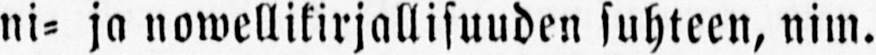ni- ja nowellikirjallisuuden suhteen, nim.
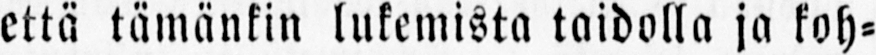että tämänkin lukemista taidolla ja koh-
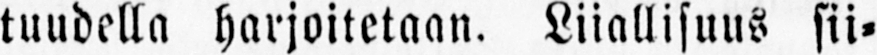tuudella harjoitetaan. Liiallisuus sii-
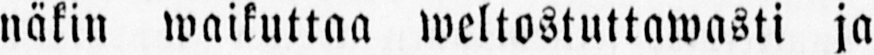näkin waikuttaa weltostuttawasti ja
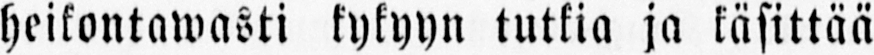heikontawasti kykyyn tutkia ja käsittää
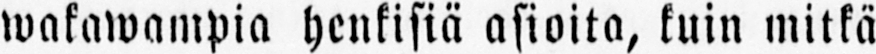wasawampia henkisiä asioita, kuin mitkä
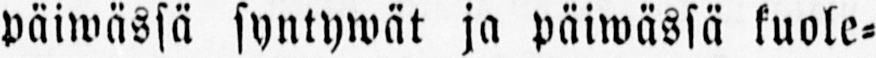päiwässä syntywät ja päiwässä kuole-
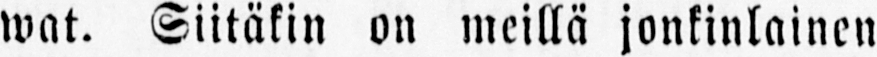wat. Siitäkin on meillä jonkinlainen
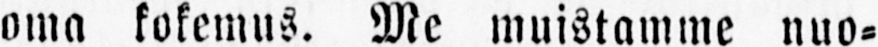oma kokemus. Me muistamme nuo-
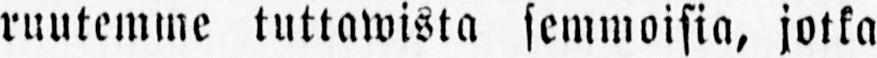ruutemme tuttawista semmoisia, jotka
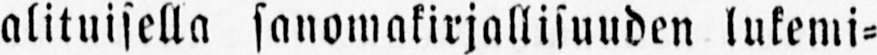alituisella sanomakirjallisuuden lukemi-
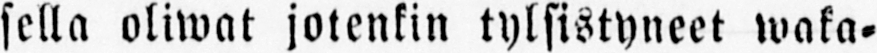sella oliwat jotenkin tylsistyneet waka-
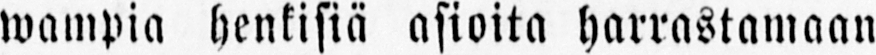wampia henkisiä asioita harrastamaan
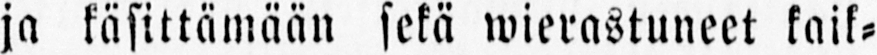ja käsittämään sekä wierastuneet kaik-
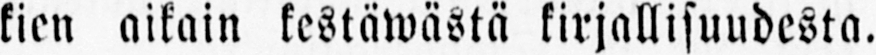kien aikain kestäwästä kirjallisuudesta.
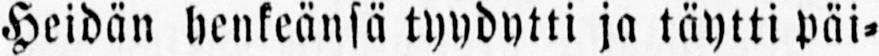Heidän henkeänsä tyydytti ja täytti päi-
